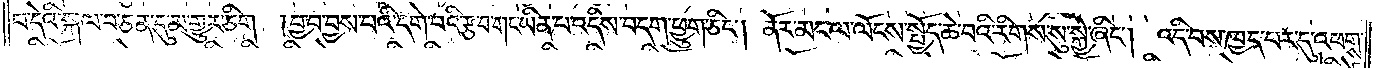པ་དེའི་སྐལ་བ་ཅན་དུ་མ་གྱུར་ཅིག །བྱ་བ་བྱས་པའི་དགེ་བའི་རྩ་བ་གང་ཡིན་པ་འདིས་བདག་ཕྱུག་ཅིང༌། ནོར་མང་ལ་ལོངས་སྤྱོད་ཆེ་བའི་རིགས་སུ་སྐྱེ་ཞིང༌། འདི་བས་ཁྱད་པར་དུ་འཕགས་
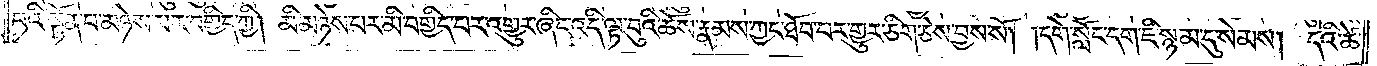པའི་སྟོན་པ་མཉེས་པར་བགྱིད་ཀྱི། མི་མཉེས་པར་མི་བགྱིད་པར་འགྱུར་ཞིང་འདི་ལྟ་བུའི་ཆོས་རྣམས་ཀྱང་ཐོབ་པར་གྱུར་ཅིག་ཅེས་བྱས་སོ། །དགེ་སློང་དག་ཇི་སྙམ་དུ་སེམས། དེའི་ཚེ་
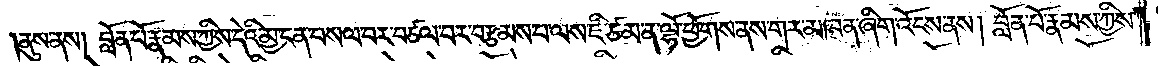ནུས་ནས། བློན་པོ་རྣམས་ཀྱིས་དེའི་མྱ་ངན་བསལ་བར་བཙལ་བར་བརྩམས་པ་ལས་ཇི་ཙམ་ན་ལྷོ་ཕྱོགས་ནས་གར་མཁན་ཞིག་འོངས་ནས། བློན་པོ་རྣམས་ཀྱིས་
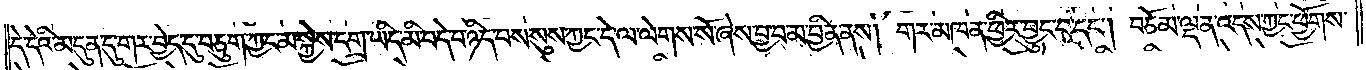དེ་དེའི་མདུན་དུ་གར་བྱེད་དུ་བཅུག་ཀྱང་མ་སྐྱེས་དགྲ་ཡིད་མི་བདེ་བ་ཉིད་པས་སུས་ཀྱང་དེ་ལ་ལེགས་སོ་ཞེས་བྱ་བ་མ་བྱིན་ནས། གར་མཁན་ཕྱིར་བྱུང་བ་དང༌། བཅོམ་ལྡན་འདས་ཀྱང་ཕྱོགས་
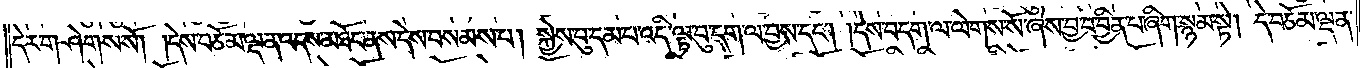དེར་གཤེགས་སོ། །དེས་བཅོམ་ལྡན་འདས་མཐོང་ནས་དེས་བསམས་པ། སྐྱེས་བུ་དམ་པ་འདི་ལྟ་བུ་དག་ལ་བྱས་དང༌། དེས་བདག་ལ་ལེགས་སོ་ཞེས་བྱ་བ་བྱིན་པ་ཞིག་སྙམ་སྟེ། དེ་བཅོམ་ལྡན་
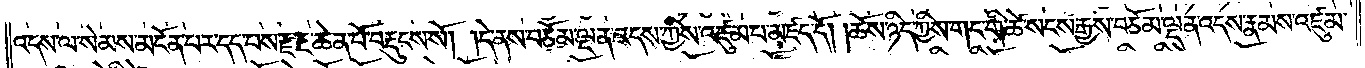འདས་ལ་སེམས་མངོན་པར་དད་པས་རྫ་རྔ་ཆེན་པོ་བརྡུངས་སོ། །དེ་ནས་བཅོམ་ལྡན་འདས་ཀྱིས་འཛུམ་པ་མཛད་དོ། །ཆོས་ཉིད་ཀྱིས་གང་གི་ཚེ་སངས་རྒྱས་བཅོམ་ལྡན་འདས་རྣམས་འཛུམ་
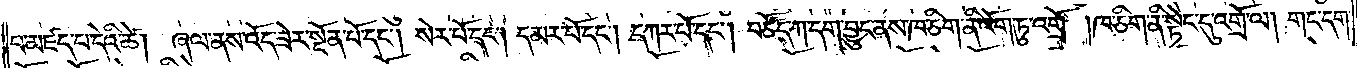པ་མཛད་པ་དེའི་ཚེ། ཞལ་ནས་འོད་ཟེར་སྔོན་པོ་དང༌། སེར་པོ་དང༌། དམར་པོ་དང༌། དཀར་པོ་དང༌། བཙོད་ཀ་དག་བྱུང་ནས་ཁ་ཅིག་ནི་འོག་ཏུ་འགྲོ་།ཁ་ཅིག་ནི་སྟེང་དུ་འགྲོ་ལ། གང་དག་
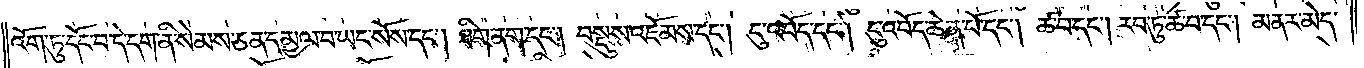འོག་ཏུ་དོང་བ་དེ་དག་ནི་སེམས་ཅན་དམྱལ་བ་ཡང་སོས་དང༌། ཐིག་ནག་དང༌། བསྡུས་འཇོམས་དང༌། ངུ་འབོད་དང༌། ངུ་འབོད་ཆེན་པོ་དང༌། ཚ་བ་དང༌། རབ་ཏུ་ཚ་བ་དང༌། མནར་མེད་
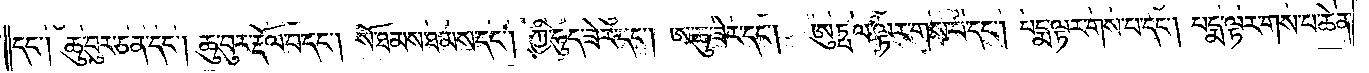དང༌། ཆུ་བུར་ཅན་དང༌། ཆུ་བུར་རྡོལ་བ་དང༌། སོ་ཐམས་ཐམས་དང༌། ཀྱི་ཧུད་ཟེར་དང༌། ཨ་ཆུ་ཟེར་དང༌། ཨུཏྤལ་ལྟར་གས་པ་དང༌། པདྨ་ལྟར་གས་པ་དང༌། པདྨ་ལྟར་གས་པ་ཆེན་
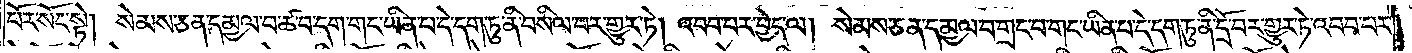པོར་སོང་སྟེ། སེམས་ཅན་དམྱལ་བ་ཚ་བ་དག་གང་ཡིན་པ་དེ་དག་ཏུ་ནི་བསིལ་བར་གྱུར་ཏེ། འབབ་པར་བྱེད་ལ། སེམས་ཅན་དམྱལ་བ་གྲང་བ་གང་ཡིན་པ་དེ་དག་ཏུ་ནི་དྲོ་བར་གྱུར་ཏེ་འབབ་པར་
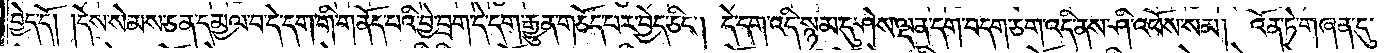བྱེད་དོ། །དེས་སེམས་ཅན་དམྱལ་བ་དེ་དག་གི་གནོད་པའི་བྱེ་བྲག་དེ་དག་རྒྱུན་གཅོད་པར་བྱེད་ཅིང༌། དེ་དག་འདི་སྙམ་དུ་ཤེས་ལྡན་དག་བདག་ཅག་འདི་ནས་ཤི་འཕོས་སམ། འོན་ཏེ་གཞན་དུ་
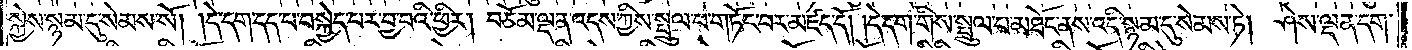སྐྱེས་སྙམ་དུ་སེམས་སོ། །དེ་དག་དད་པ་བསྐྱེད་པར་བྱ་བའི་ཕྱིར། བཅོམ་ལྡན་འདས་ཀྱིས་སྤྲུལ་པ་གཏོང་བར་མཛད་དོ། །དེ་དག་གིས་སྤྲུལ་པ་མཐོང་ནས་འདི་སྙམ་དུ་སེམས་ཏེ། ཤེས་ལྡན་དག་
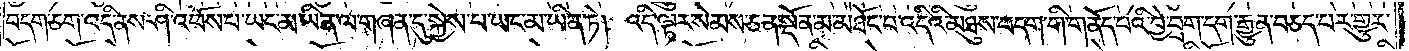བདག་ཅག་འདི་ནས་ཤི་འཕོས་པ་ཡང་མ་ཡིན་ལ་གཞན་དུ་སྐྱེས་པ་ཡང་མ་ཡིན་ཏེ། འདི་ལྟར་སེམས་ཅན་སྔོན་མ་མཐོང་བ་འདིའི་མཐུས་བདག་གི་གནོད་པའི་བྱེ་བྲག་དག་རྒྱུན་བཅད་པར་གྱུར་
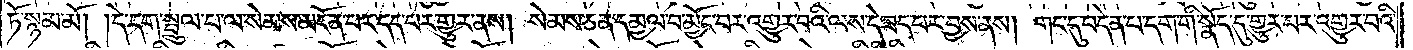ཏོ་སྙམ་མོ། །དེ་དག་སྤྲུལ་པ་ལ་སེམས་མངོན་པར་དད་པར་གྱུར་ནས། སེམས་ཅན་དམྱལ་བ་མྱོང་བར་འགྱུར་བའི་ལས་དེ་ཟད་པར་བྱས་ནས། གང་དུ་བདེན་པ་དག་གི་སྣོད་དུ་གྱུར་པར་འགྱུར་བའི་
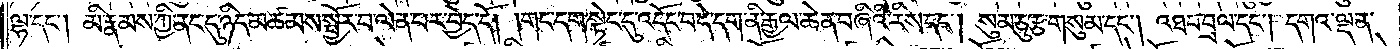ལྷ་དང༌། མི་རྣམས་ཀྱི་ནང་དུ་ཉིང་མཚམས་སྦྱོར་བ་ལེན་པར་བྱེད་དོ། །གང་དག་སྟེང་དུ་འདོང་བ་དེ་དག་ནི་རྒྱལ་ཆེན་བཞིའི་རིས་དང༌། སུམ་ཅུ་རྩ་གསུམ་དང༌། འཐབ་བྲལ་དང༌། དགའ་ལྡན་
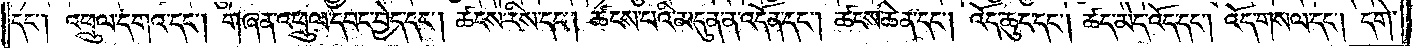དང༌། འཕྲུལ་དགའ་དང༌། གཞན་འཕྲུལ་དབང་བྱེད་དང༌། ཚངས་རིས་དང༌། ཚངས་པའི་མདུན་ན་འདོན་དང༌། ཚངས་ཆེན་དང༌། འོད་ཆུང་དང༌། ཚད་མེད་འོད་དང༌། འོད་གསལ་དང༌། དགེ་
